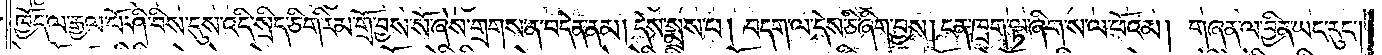ཁྱོད་ལ་རྒྱལ་པོ་ཤི་བིས་དུས་འདི་སྲིད་ཅིག་རིམ་གྲོ་བྱས་སོ་ཞེས་གྲགས་ན་བདེན་ནམ། དེས་སྨྲས་པ། བདག་ལ་དེས་ཅི་ཞིག་བྱས། ངན་ཁྲག་ལྟ་ཞིག་ས་ལ་ཕོའམ། གཞན་ལ་བྱིན་ཡང་རུང༌།
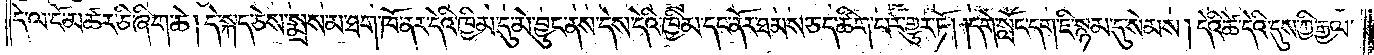དེ་ལ་ངོ་མཚར་ཅི་ཞིག་ཆེ། དེ་སྐད་ཅེས་སྨྲས་མ་ཐག་ཁོ་ནར་དེའི་ཁྱིམ་དུ་མེ་བྱུང་ནས་དེས་དེའི་ཁྱིམ་དང་ནོར་ཐམས་ཅད་ཚིག་པར་གྱུར་ཏོ། །དགེ་སློང་དག་ཇི་སྙམ་དུ་སེམས། དེའི་ཚེ་དེའི་དུས་ཀྱི་རྒྱལ་
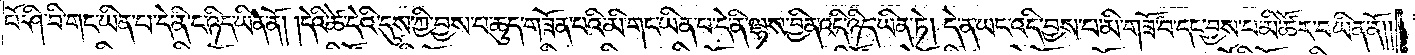པོ་ཤི་བི་གང་ཡིན་པ་དེ་ནི་ང་ཉིད་ཡིན་ནོ། །དེའི་ཚེ་དེའི་དུས་ཀྱི་བྱས་པ་ཆུད་གཟོན་པའི་མི་གང་ཡིན་པ་དེ་ནི་ལྷས་བྱིན་འདི་ཉིད་ཡིན་ཏེ། དེ་ན་ཡང་འདི་བྱས་པ་མི་གཟོ་བ་དང་བྱས་པ་མི་ཚོར་བ་ཡིན་ནོ༎
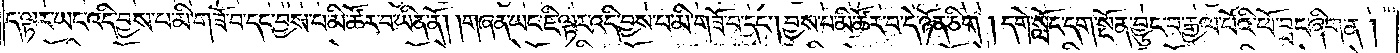ད་ལྟར་ཡང་འདི་བྱས་པ་མི་གཟོ་བ་དང་བྱས་པ་མི་ཚོར་བ་ཡིན་ནོ། །གཞན་ཡང་ཇི་ལྟར་འདི་བྱས་པ་མི་གཟོ་བ་དང༌། བྱས་པ་མི་ཚོར་བ་དེ་ཉོན་ཅིག །དགེ་སློང་དག་སྔོན་བྱུང་བ་རྒྱལ་པོའི་ཕོ་བྲང་ཞིག་ན།
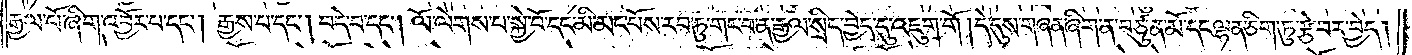རྒྱལ་པོ་ཞིག་འབྱོར་པ་དང༌། རྒྱས་པ་དང༌། བདེ་བ་དང༌། ལོ་ལེགས་པ་སྐྱེ་བོ་དང་མི་མང་པོས་རབ་ཏུ་གང་བ་ན་རྒྱལ་སྲིད་བྱེད་དུ་འཇུག་གོ །དེ་དུས་གཞན་ཞིག་ན་བཙུན་མོ་དང་ལྷན་ཅིག་ཏུ་རྩེ་བར་བྱེད།
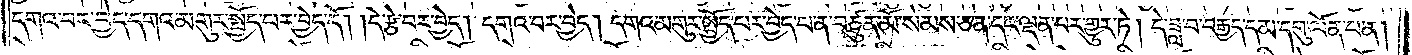དགའ་བར་བྱེད་དགའ་མགུར་སྤྱོད་པར་བྱེད་དོ། །དེ་རྩེ་བར་བྱེད། དགའ་བར་བྱེད། དགའ་མགུར་སྤྱོད་པར་བྱེད་པ་ན་བཙུན་མོ་སེམས་ཅན་དང་ལྡན་པར་གྱུར་ཏེ། དེ་ཟླ་བ་བརྒྱད་དམ་དགུ་ལོན་པ་ན།
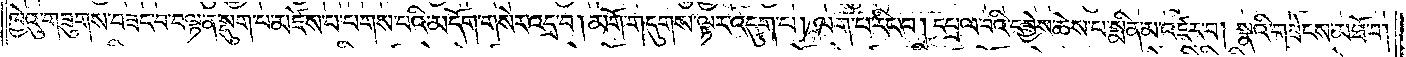ཁྱེའུ་གཟུགས་བཟང་བ་བལྟ་ན་སྡུག་པ་མཛེས་པ་པགས་པའི་མདོག་གསེར་འདྲ་བ། མགོ་གདུགས་ལྟར་འདུག་པ། ལག་པ་རིང་བ། དཔྲལ་བའི་དབྱེས་ཆེས་པ་སྨིན་མ་འཛར་བ། སྣའི་གཟེངས་མཐོ་བ།
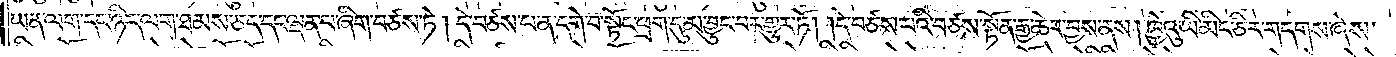ཡན་ལག་དང་ཉིད་ལག་ཐམས་ཅད་དང་ལྡན་པ་ཞིག་བཙས་ཏེ། དེ་བཙས་པ་ན་དགེ་བ་སྟོང་ཕྲག་དུ་མ་བྱུང་བར་གྱུར་ཏོ། །དེ་བཙས་པའི་བཙས་སྟོན་རྒྱ་ཆེར་བྱས་ནས། ཁྱེའུ་ཡི་མིང་ཅིར་གདགས་ཞེས་
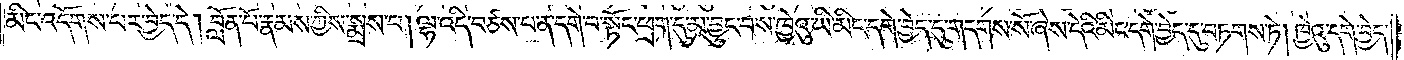མིང་འདོགས་པར་བྱེད་དེ། བློན་པོ་རྣམས་ཀྱིས་སྨྲས་པ། ལྷ་འདི་བཙས་པ་ན་དགེ་བ་སྟོང་ཕྲག་དུ་མ་བྱུང་བས་ཁྱེའུ་ཡི་མིང་དགེ་བྱེད་དུ་གདགས་སོ་ཞེས་དེའི་མིང་དགེ་བྱེད་དུ་བཏགས་ཏེ། ཁྱེའུ་དགེ་བྱེད་
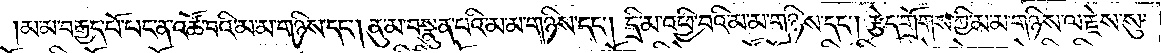།མ་མ་བརྒྱད་པོ་པང་ན་འཚོ་བའི་མ་མ་གཉིས་དང༌། ནུ་མ་བསྣུན་པའི་མ་མ་གཉིས་དང༌། དྲི་མ་འཕྱི་བའི་མ་མ་གཉིས་དང༌། རྩེད་གྲོགས་ཀྱི་མ་མ་གཉིས་ལ་རྗེས་སུ་
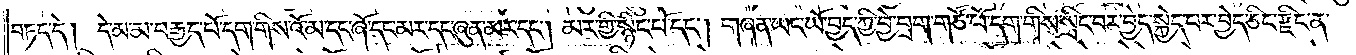བཏད་དེ། དེ་མ་མ་བརྒྱད་པོ་དག་གིས་འོ་མ་དང་ཞོ་དང་མར་དང་ཞུན་མར་དང༌། མར་གྱི་སྙིང་པོ་དང༌། གཞན་ཡང་ཡོ་བྱད་ཀྱི་བྱེ་བྲག་གཙོ་བོ་དག་གིས་སྲིང་བར་བྱེད་སྐྱེད་པར་བྱེད་ཅིང་རྫིང་ན་
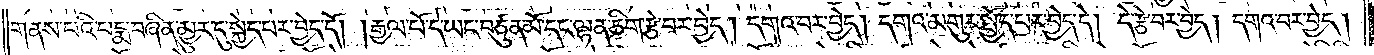གནས་པའི་པདྨ་བཞིན་མྱུར་དུ་སྐྱེད་པར་བྱེད་དོ། །རྒྱལ་པོ་དེ་ཡང་བཙུན་མོ་དང་ལྷན་ཅིག་རྩེ་བར་བྱེད། དགའ་བར་བྱེད། དགའ་མགུར་སྤྱོད་པར་བྱེད་དེ། དེ་རྩེ་བར་བྱེད། དགའ་བར་བྱེད།
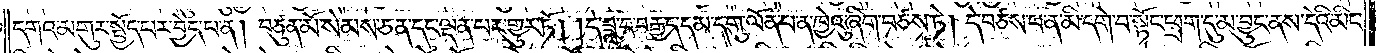དགའ་མགུར་སྤྱོད་པར་བྱེད་པ་ན། བཙུན་མོ་སེམས་ཅན་དང་ལྡན་པར་གྱུར་ཏོ། །དེ་ཟླ་བ་བརྒྱད་དམ་དགུ་ལོན་པ་ན་ཁྱེའུ་ཞིག་བཙས་ཏེ། དེ་བཙས་པ་ན་མི་དགེ་བ་སྟོང་ཕྲག་དུ་མ་བྱུང་ནས་དེའི་མིང་
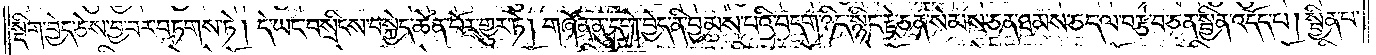སྡིག་བྱེད་ཅེས་བྱ་བར་བཏགས་ཏེ། དེ་ཡང་བསྲིངས་བསྐྱེད་ཆེན་པོར་གྱུར་ཏེ། གཞོན་ནུ་དགེ་བྱེད་ནི་བྱམས་པའི་བདག་ཉིད་སྙིང་རྗེ་ཅན་སེམས་ཅན་ཐམས་ཅད་ལ་བརྩེ་བ་ཅན་སྦྱིན་འདོད་པ། སྦྱིན་པ་
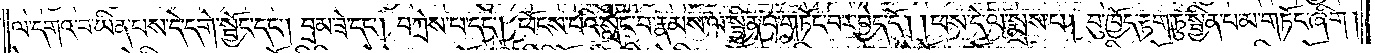ལ་དགའ་བ་ཡིན་པས་དེ་དགེ་སྦྱོང་དང༌། བྲམ་ཟེ་དང༌། བཀྲེས་པ་དང༌། ཕོངས་པའི་སློང་བ་རྣམས་ལ་སྦྱིན་པ་གཏོང་བར་བྱེད་དོ། །ཕས་དེ་ལ་སྨྲས་པ། བུ་ཁྱོད་རྟག་ཏུ་སྦྱིན་པ་མ་གཏོང་ཞིག །
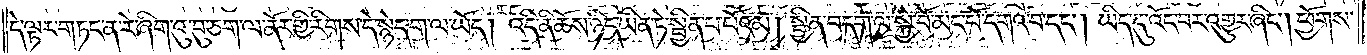དེ་ལྟར་གཏང་ན་རེ་ཞིག་འུ་བུ་ཅག་ལ་ནོར་གྱི་རིགས་དེ་སྙེད་ག་ལ་ཡོད། འདི་ནི་ཆོས་ཉིད་ཡིན་ཏེ་སྦྱིན་པ་པོའམ། སྦྱིན་བདག་ལ་སྐྱེ་བོ་མང་པོ་དགའ་བ་དང༌། ཡིད་དུ་འོང་བར་འགྱུར་ཞིང༌། ཕྱོགས་
